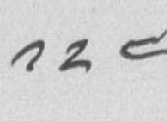༡༢༤
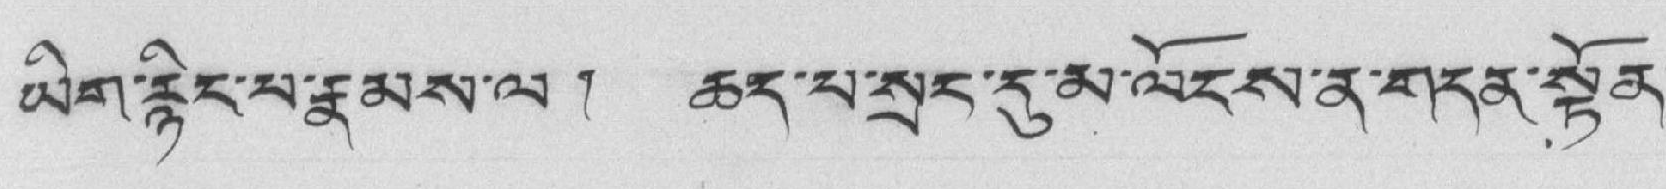ཡིག་རྙིང་པ་རྣམས་ལ ། ཆད་པ་སྲང་དུ་མ་ལོངས་ན་གདན་སྟོན་
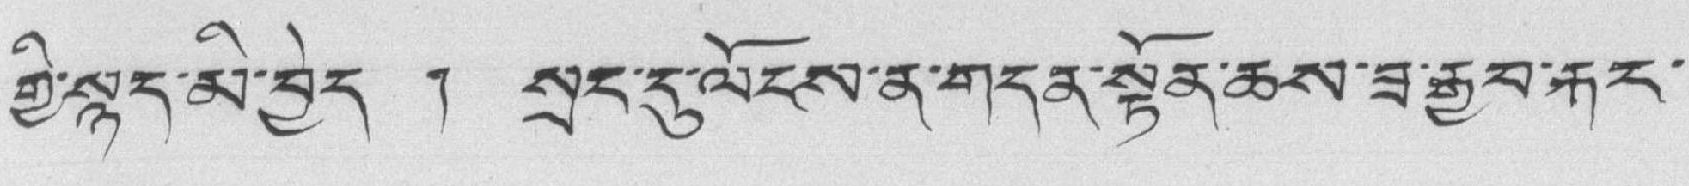གྱི་སྙད་མི་བྱེད ། སྲང་དུ་ལོངས་ན་གདན་སྟོན་ཆས་ཟ་རྒྱབ་རྐང་
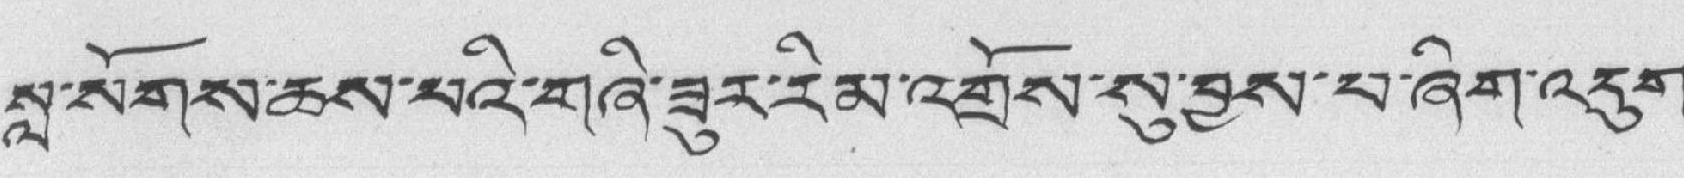སླ་སོགས་ཆས་པའི་གཞི་ཟུར་རིམ་འགྲོས་སུ་བྱས་པ་ཞིག་འདུག
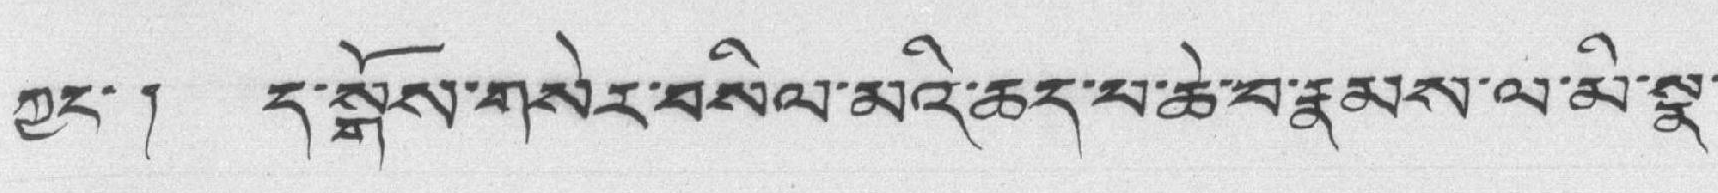ཀྱང་ ། ད་སྒོས་གསེར་བསིལ་མའི་ཆད་པ་ཆེ་བ་རྣམས་ལ་མི་སྣ་
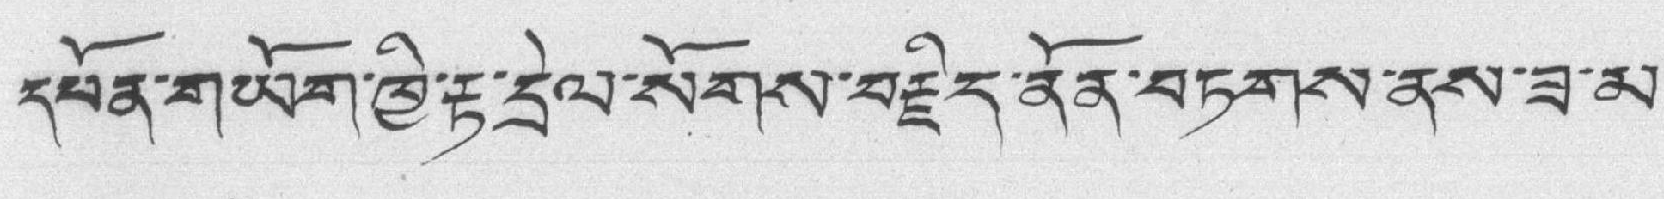དཔོན་གཡོག་ཁྱི་རྟ་དྲེལ་སོགས་བརྗིད་ནོན་བཏགས་ནས་ཟ་མ་
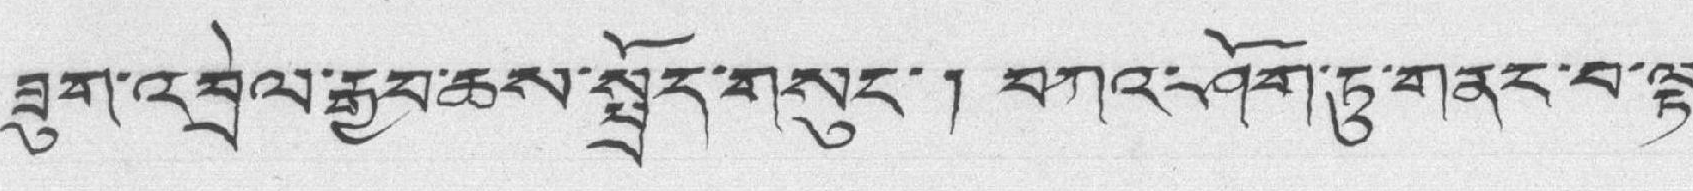ཟུག་འབྲེལ་རྒྱབ་ཆོས་སྤྲོད་གསུང་། བཀའ་ཤོག་ཏུ་གནང་བ་ལྟ་
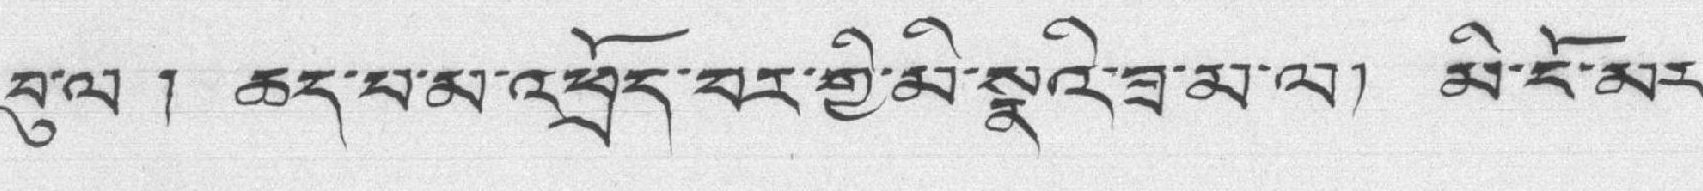བུ་ལ ། ཆད་པ་མ་འཕྲོད་བར་གྱི་མི་སྣའི་ཟ་མ་ལ། མི་ངོ་མར་
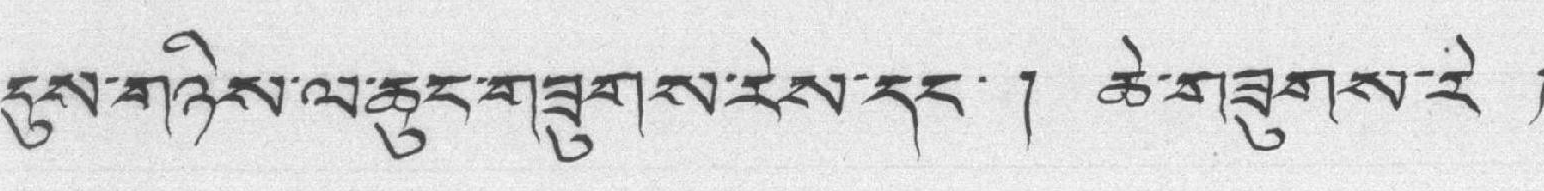དུས་གཉིས་ལ་ཆུང་གཟུགས་རེས་དང་། ཆེ་གཟུགས་རེ །
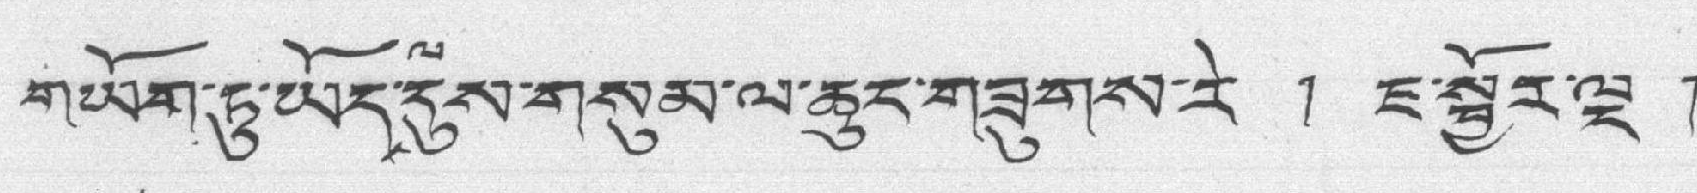གཡོག་ཏུ་ཡོད་ལ་དུས་གསུམ་ལ་ཆུང་གཟུགས་རེ ། ཇ་སྦྱོར་ལྔ །
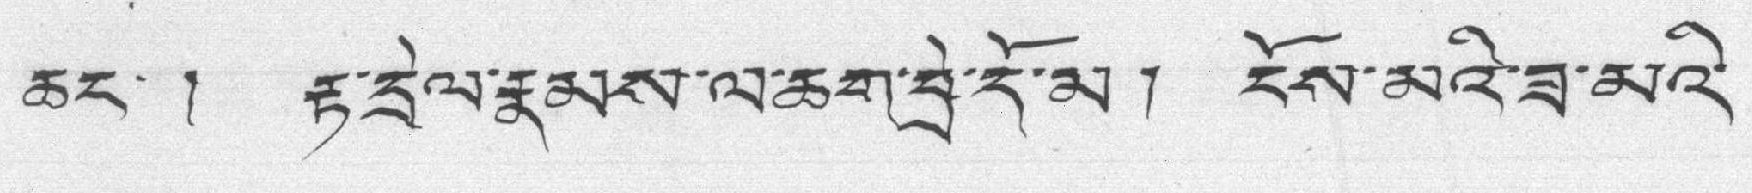ཆང་ ། རྟ་དྲེལ་རྣམས་ལ་ཆག་བྲེ་དོ་མ། ངོས་མའི་ཟ་མའི་
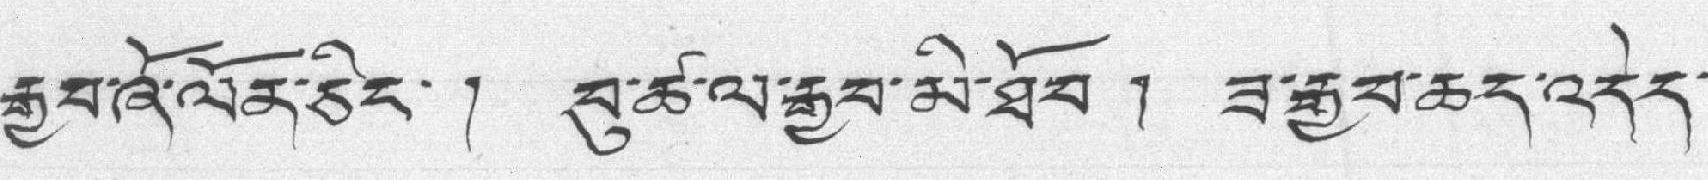རྒྱབ་ཞོ་ལོན་ཅིང་ ། བུ་ཚ་ལ་རྒྱབ་མི་ཐོབ ། ཟ་རྒྱབ་ཆད་འདེད་
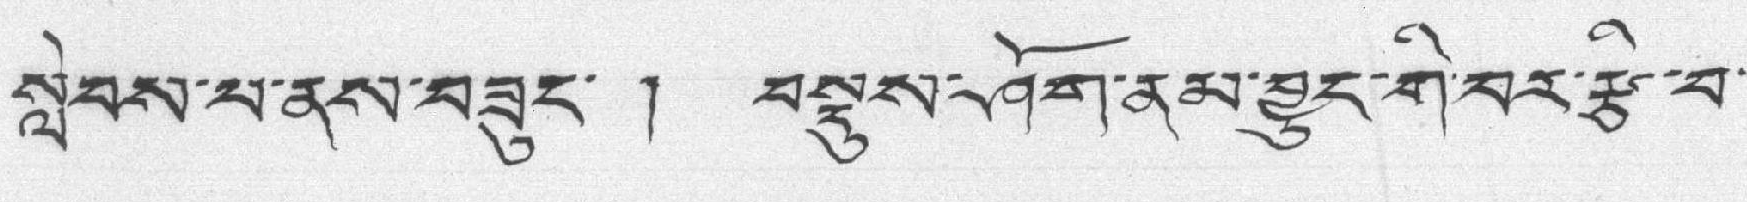སླེབས་པ་ནས་བཟུང་ ། བསྡུས་ཤོག་ནམ་བྱུང་གི་བར་རྩི་བ་
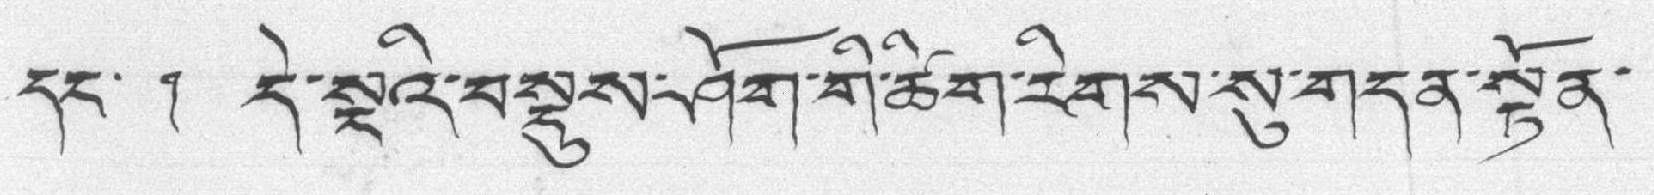དང་ ། དེ་སྔའི་བསྡུས་ཤོག་གི་ཚིག་རིགས་སུ་གདན་སྟོན་
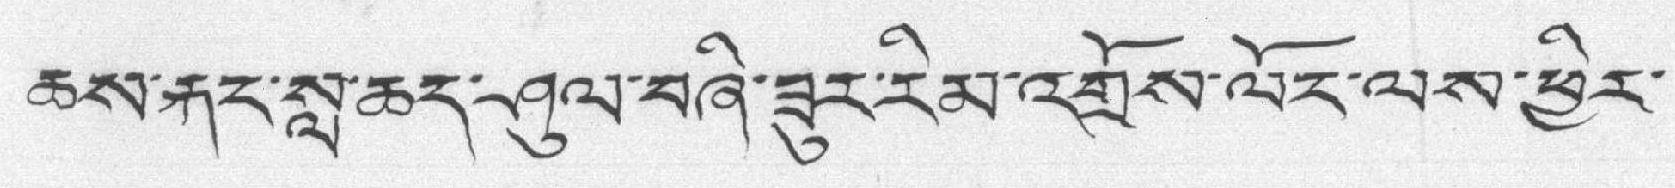ཆས་རྐང་སླ་ཆད་ཤུལ་བཞི་ཟུར་རིམ་འགྲོས་ལོང་ལས་ཕྱིར་
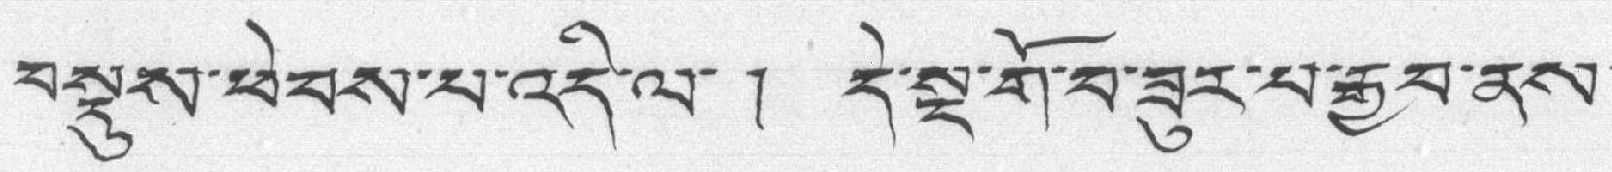བསྡུས་ཕེབས་པ་འདི་ལ་ ། དེ་སྔ་གོ་བ་ཟུར་པ་རྒྱབ་ནས་
